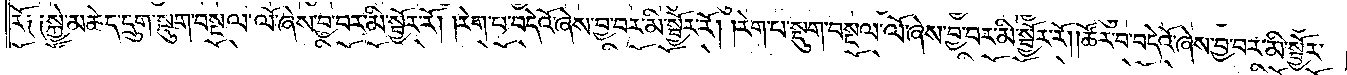རོ༑ ༑སྐྱེ་མཆེད་དྲུག་སྡུག་བསྔལ་ལོ་ཞེས་བྱ་བར་མི་སྦྱོར་རོ། །རེག་པ་བདེའོ་ཞེས་བྱ་བར་མི་སྦྱོར་རོ། །རེག་པ་སྡུག་བསྔལ་ལོ་ཞེས་བྱ་བར་མི་སྦྱོར་རོ། །ཚོར་བ་བདེའོ་ཞེས་བྱ་བར་མི་སྦྱོར་
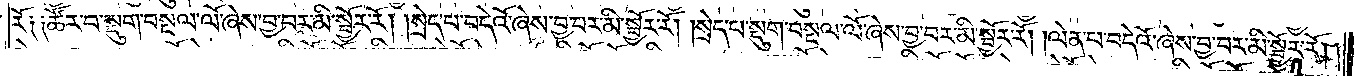རོ༑ ༑ཚོར་བ་སྡུག་བསྔལ་ལོ་ཞེས་བྱ་བར་མི་སྦྱོར་རོ། །སྲེད་པ་བདེའོ་ཞེས་བྱ་བར་མི་སྦྱོར་རོ། །སྲེད་པ་སྡུག་བསྔལ་ལོ་ཞེས་བྱ་བར་མི་སྦྱོར་རོ། །ལེན་པ་བདེའོ་ཞེས་བྱ་བར་མི་སྦྱོར་རོ། །
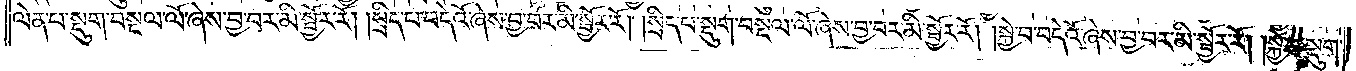ལེན་པ་སྡུག་བསྔལ་ལོ་ཞེས་བྱ་བར་མི་སྦྱོར་རོ། །སྲིད་པ་བདེའོ་ཞེས་བྱ་བར་མི་སྦྱོར་རོ། །སྲིད་པ་སྡུག་བསྔལ་ལོ་ཞེས་བྱ་བར་མི་སྦྱོར་རོ། །སྐྱེ་བ་བདེའོ་ཞེས་བྱ་བར་མི་སྦྱོར་རོ། །སྐྱེ་བ་སྡུག་
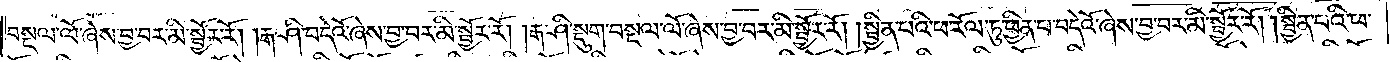བསྔལ་ལོ་ཞེས་བྱ་བར་མི་སྦྱོར་རོ། །རྒ་ཤི་བདེའོ་ཞེས་བྱ་བར་མི་སྦྱོར་རོ། །རྒ་ཤི་སྡུག་བསྔལ་ལོ་ཞེས་བྱ་བར་མི་སྦྱོར་རོ། །སྦྱིན་པའི་ཕ་རོལ་ཏུ་ཕྱིན་པ་བདེའོ་ཞེས་བྱ་བར་མི་སྦྱོར་རོ། །སྦྱིན་པའི་ཕ་
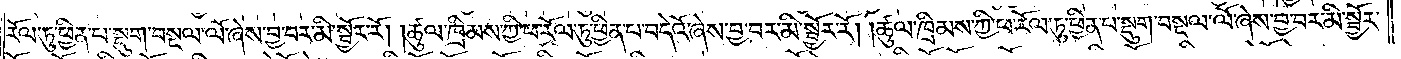རོལ་ཏུ་ཕྱིན་པ་སྡུག་བསྔལ་ལོ་ཞེས་བྱ་བར་མི་སྦྱོར་རོ། །ཚུལ་ཁྲིམས་ཀྱི་ཕ་རོལ་ཏུ་ཕྱིན་པ་བདེའོ་ཞེས་བྱ་བར་མི་སྦྱོར་རོ། །ཚུལ་ཁྲིམས་ཀྱི་ཕ་རོལ་ཏུ་ཕྱིན་པ་སྡུག་བསྔལ་ལོ་ཞེས་བྱ་བར་མི་སྦྱོར་
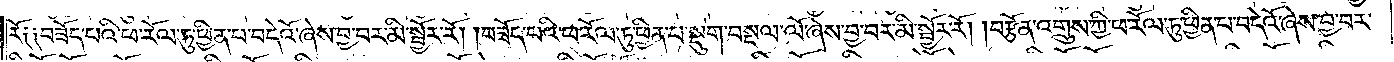རོ༑ ༑བཟོད་པའི་ཕ་རོལ་ཏུ་ཕྱིན་པ་བདེའོ་ཞེས་བྱ་བར་མི་སྦྱོར་རོ། །བཟོད་པའི་ཕ་རོལ་ཏུ་ཕྱིན་པ་སྡུག་བསྔལ་ལོ་ཞེས་བྱ་བར་མི་སྦྱོར་རོ། །བརྩོན་འགྲུས་ཀྱི་ཕ་རོལ་ཏུ་ཕྱིན་པ་བདེའོ་ཞེས་བྱ་བར་
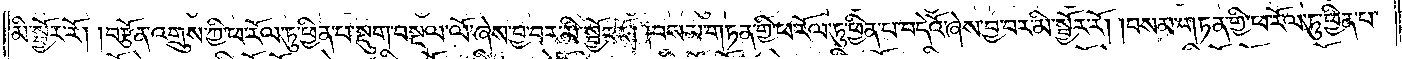མི་སྦྱོར་རོ། །བརྩོན་འགྲུས་ཀྱི་ཕ་རོལ་ཏུ་ཕྱིན་པ་སྡུག་བསྔལ་ལོ་ཞེས་བྱ་བར་མི་སྦྱོར་རོ། །བསམ་གཏན་གྱི་ཕ་རོལ་ཏུ་ཕྱིན་པ་བདེའོ་ཞེས་བྱ་བར་མི་སྦྱོར་རོ། །བསམ་གཏན་གྱི་ཕ་རོལ་ཏུ་ཕྱིན་པ་
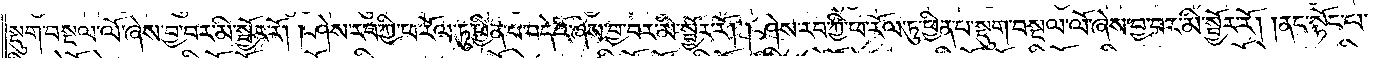སྡུག་བསྔལ་ལོ་ཞེས་བྱ་བར་མི་སྦྱོར་རོ། །ཤེས་རབ་ཀྱི་ཕ་རོལ་ཏུ་ཕྱིན་པ་བདེའོ་ཞེས་བྱ་བར་མི་སྦྱོར་རོ། །ཤེས་རབ་ཀྱི་ཕ་རོལ་ཏུ་ཕྱིན་པ་སྡུག་བསྔལ་ལོ་ཞེས་བྱ་བར་མི་སྦྱོར་རོ། །ནང་སྟོང་པ་
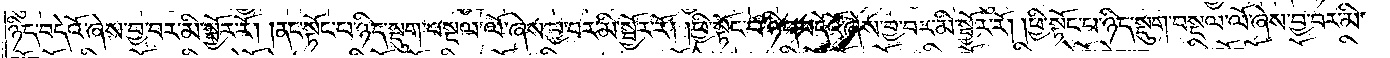ཉིད་བདེའོ་ཞེས་བྱ་བར་མི་སྦྱོར་རོ། །ནང་སྟོང་པ་ཉིད་སྡུག་བསྔལ་ལོ་ཞེས་བྱ་བར་མི་སྦྱོར་རོ། །ཕྱི་སྟོང་པ་ཉིད་བདེའོ་ཞེས་བྱ་བར་མི་སྦྱོར་རོ། །ཕྱི་སྟོང་པ་ཉིད་སྡུག་བསྔལ་ལོ་ཞེས་བྱ་བར་མི་
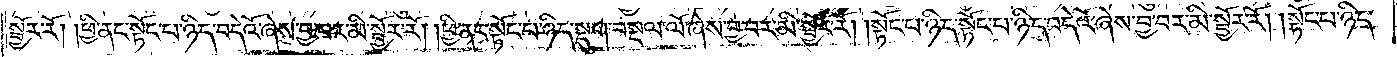སྦྱོར་རོ། །ཕྱི་ནང་སྟོང་པ་ཉིད་བདེའོ་ཞེས་བྱ་བར་མི་སྦྱོར་རོ། །ཕྱི་ནང་སྟོང་པ་ཉིད་སྡུག་བསྔལ་ལོ་ཞེས་བྱ་བར་མི་སྦྱོར་རོ། །སྟོང་པ་ཉིད་སྟོང་པ་ཉིད་བདེའོ་ཞེས་བྱ་བར་མི་སྦྱོར་རོ། །སྟོང་པ་ཉིད་
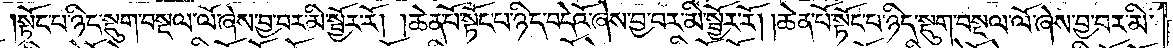སྟོང་པ་ཉིད་སྡུག་བསྔལ་ལོ་ཞེས་བྱ་བར་མི་སྦྱོར་རོ། །ཆེན་པོ་སྟོང་པ་ཉིད་བདེའོ་ཞེས་བྱ་བར་མི་སྦྱོར་རོ། །ཆེན་པོ་སྟོང་པ་ཉིད་སྡུག་བསྔལ་ལོ་ཞེས་བྱ་བར་མི་
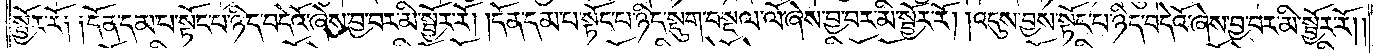སྦྱོར་རོ༑ ༑དོན་དམ་པ་སྟོང་པ་ཉིད་བདེའོ་ཞེས་བྱ་བར་མི་སྦྱོར་རོ། །དོན་དམ་པ་སྟོང་པ་ཉིད་སྡུག་བསྔལ་ལོ་ཞེས་བྱ་བར་མི་སྦྱོར་རོ། །འདུས་བྱས་སྟོང་པ་ཉིད་བདེའོ་ཞེས་བྱ་བར་མི་སྦྱོར་རོ། །
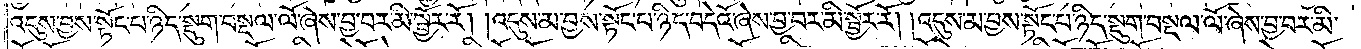འདུས་བྱས་སྟོང་པ་ཉིད་སྡུག་བསྔལ་ལོ་ཞེས་བྱ་བར་མི་སྦྱོར་རོ། །འདུས་མ་བྱས་སྟོང་པ་ཉིད་བདེའོ་ཞེས་བྱ་བར་མི་སྦྱོར་རོ། །འདུས་མ་བྱས་སྟོང་པ་ཉིད་སྡུག་བསྔལ་ལོ་ཞེས་བྱ་བར་མི་
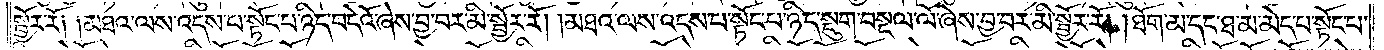སྦྱོར་རོ༑ ༑མཐའ་ལས་འདས་པ་སྟོང་པ་ཉིད་བདེའོ་ཞེས་བྱ་བར་མི་སྦྱོར་རོ། །མཐའ་ལས་འདས་པ་སྟོང་པ་ཉིད་སྡུག་བསྔལ་ལོ་ཞེས་བྱ་བར་མི་སྦྱོར་རོ། །ཐོག་མ་དང་ཐ་མ་མེད་པ་སྟོང་པ་
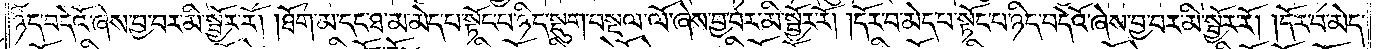ཉིད་བདེའོ་ཞེས་བྱ་བར་མི་སྦྱོར་རོ། །ཐོག་མ་དང་ཐ་མ་མེད་པ་སྟོང་པ་ཉིད་སྡུག་བསྔལ་ལོ་ཞེས་བྱ་བར་མི་སྦྱོར་རོ། །དོར་བ་མེད་པ་སྟོང་པ་ཉིད་བདེའོ་ཞེས་བྱ་བར་མི་སྦྱོར་རོ། །དོར་བ་མེད་
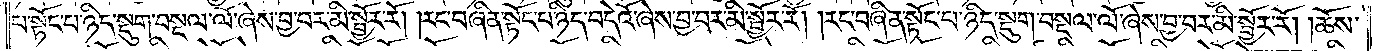པ་སྟོང་པ་ཉིད་སྡུག་བསྔལ་ལོ་ཞེས་བྱ་བར་མི་སྦྱོར་རོ། །རང་བཞིན་སྟོང་པ་ཉིད་བདེའོ་ཞེས་བྱ་བར་མི་སྦྱོར་རོ། །རང་བཞིན་སྟོང་པ་ཉིད་སྡུག་བསྔལ་ལོ་ཞེས་བྱ་བར་མི་སྦྱོར་རོ། །ཆོས་
